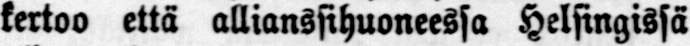kertoo että allianssihuoneessa Helsingissä
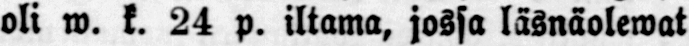oli w. k. 24 p. iltama, jossa läsnäolewat
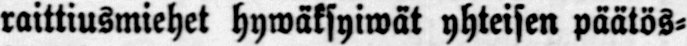raittiusmiehet hywäksyiwät yhteisen päätös-
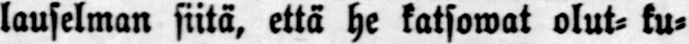lauselman siitä, että he katsowat olut- ku-
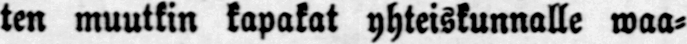ten muutkin kapakat yhteiskunnalle waa-
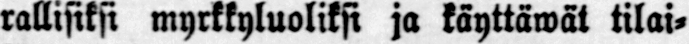rallisiksi myrkkyluoliksi ja täyttäwät tilai-
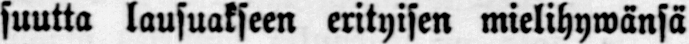suutta lausuakseen erityisen mielihywänsä
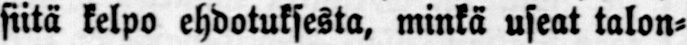siitä kelpo ehdotuksesta, minkä useat talon-
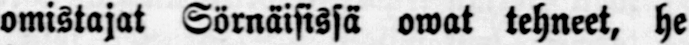omistajat Sörnäisissä owat tehneet, he
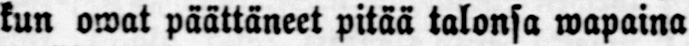kun owat päättäneet pitää talonsa wapaina
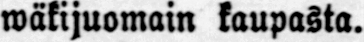wäkijuomain kaupasta.
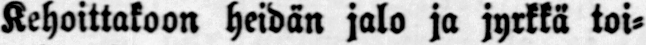Kehoittakoon heidän jalo ja jyrkkä toi-
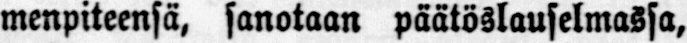menpiteensä, sanotaan päätöslauselmassa,
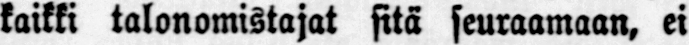kaikki talonomistajat sitä seuraamaan, ei
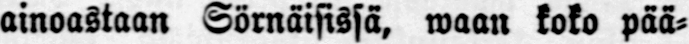ainoastaan Sörnäisissä, waan koko pää-
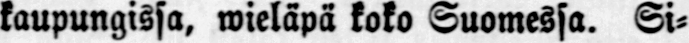kaupungissa, wieläpä koko Suomessa. Si-
